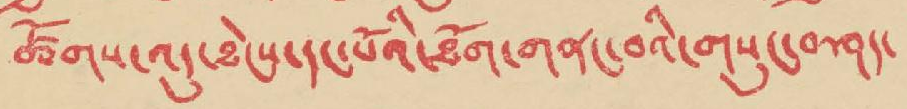ཚོགས་འདུ་ཐེངས་དང་པོའི་ཐོག་གནང་བའི་གསུང་བཤད་
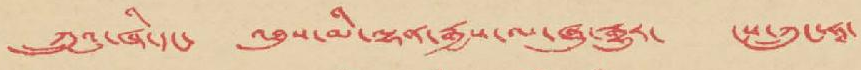ཀྲུའུ་ཞི་དང་ འཐུས་མི་ལྷན་རྒྱས་ལ་ཞུ་རྒྱུར་ ངས་ཀྲུང་ཧཱ་
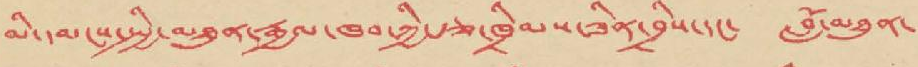མི་དམངས་སྤྱི་མཐུན་རྒྱལ་ཁབ་ཀྱི་རྩ་ཁྲིམས་ཟིན་བྲིས་དང་ བློ་མཐུན་
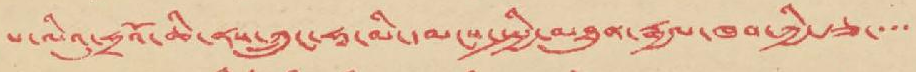པ་ལིའུ་ཧྲའོ་ཆི་ནས་ཀྲུང་ཧཱ་མི་དམངས་སྤྱི་མཐུན་རྒྱལ་ཁབ་ཀྱི་རྩ་་་་
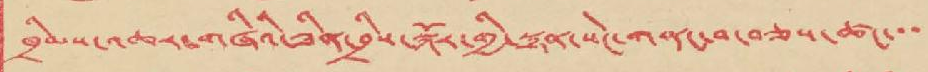ཁྲིམས་འཆར་གཞིའི་ཟིན་བྲིས་སྐོར་གྱི་སྙན་སེང་གནང་བ་བཅས་ཚང་་་
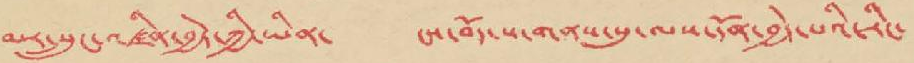མར་སྲུང་འཛིན་བྱེད་ཀྱི་ཡིན་ ངས་བོད་ས་གནས་སུ་ལས་དོན་བྱེད་པའི་རིང་
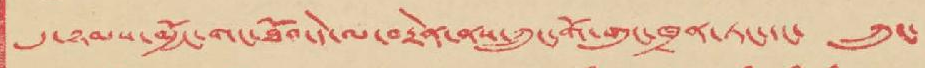དུ་ཉམས་མྱོང་གང་ཐོབ་དེ་ལ་བརྟེན་ནས་ཀྲུང་གོ་གུང་ཁྲན་ཏང་དང་ ཀྲུང་
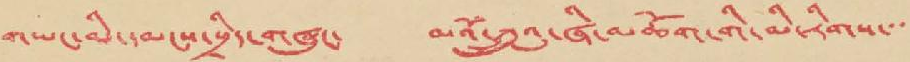གཡང་མི་དམངས་སྲིད་གཞུང་ མའོ་ཀྲུའུ་ཞི་མཆོག་གི་མི་རིགས་་་
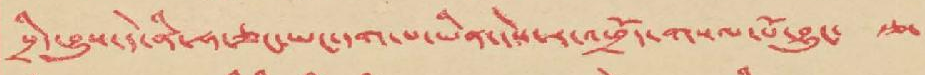སྲིད་བྱུས་དེ་ནི་ཧ་ཅང་ཡང་དག་པ་ཡིན་དེས་ར་འཕྲོད་གསལ་པོ་བྱུང་ རྩ་
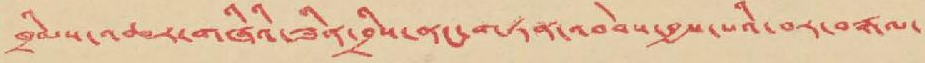ཁྲིམས་འཆར་གཞིའི་ཟིན་བྲིས་ནང་གཏན་འབེབས་བྱས་པའི་བར་བརྒལ་
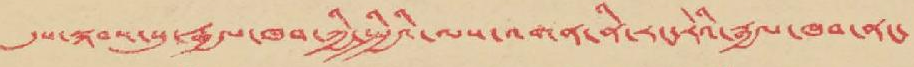དུས་སྐབས་སུ་རྒྱལ་ཁབ་ཀྱི་སྤྱིའི་ལས་འགན་ནི་རང་རེའི་རྒྱལ་ཁབ་ནང་
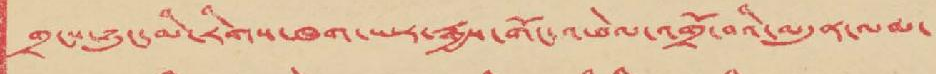གྲངས་ཉུང་མི་རིགས་ཁག་ཡར་རྒྱས་གོང་འཕེལ་འགྲོ་བའི་མདུན་ལམ་
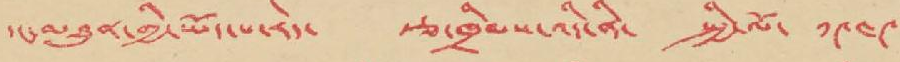དང་མཐུན་གྱི་ཡོད་པ་རེད་ རྩ་ཁྲིམས་འདི་ནི་ སྤྱི་ལོ་ ༡༩༥༩
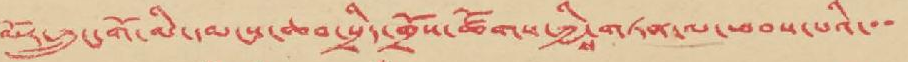ལོར་ཀྲུང་གོ་མི་དམངས་ཆབ་སྲིད་གྲོས་ཚོགས་ཀྱིས་གཏན་ལ་ཕབས་པའི་་་
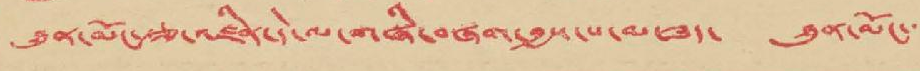ཐུན་མོང་རྩ་འཛིན་དེ་ལ་གཞི་བཞག་བྱས་པ་མ་ཟད་ ཐུན་མོང་་
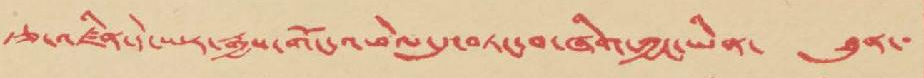རྩ་འཛིན་དེ་ཡར་རྒྱས་གོང་འཕེལ་དུ་བཏང་བ་ཞིག་ཀྱང་ཡིན་ ཐུན་
